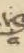བ
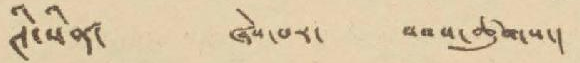ཊི་སིན་ ཞེས་པར་ བབས་ཚུགས་།
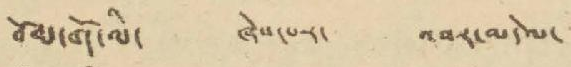བོམ་གོ་ལི་ ཞེས་པར་ འབར་མདེལ་
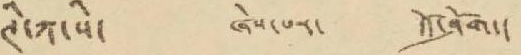ཊི་ཀ་སི་ ཞེས་པར་ འོད་ཤོག་།
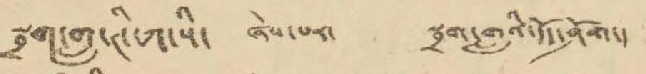སྦྲག་གླ་ཊི་ཀ་སི་ ཞེས་པར་ སྦྲག་གླའི་འོད་ཤོག་།
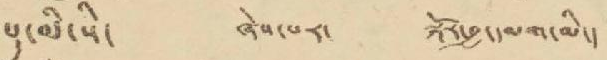པུ་ལི་སི་ ཞེས་པེ་ སྐོར་བྱ་དམག་མི་།
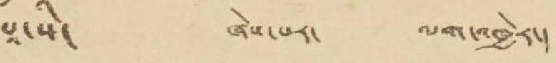པཱ་སི་ ཞེས་པར་ ལག་འཁྱེར་།
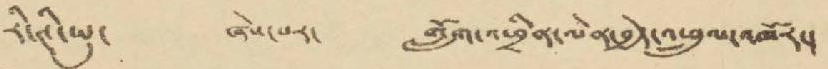རི་ཊི་ཡུ་ ཞེས་པར་ གློག་འཕྲིན་ལེན་བྱེད་འཕྲུལ་འཁོར་།
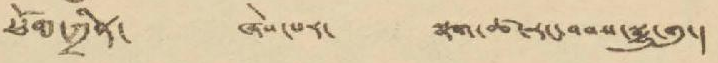ཕོམ་ཀྲིན་ ཞེས་པར་ སྣག་ཚ་རང་བབས་སྨྱུ་གུ་།
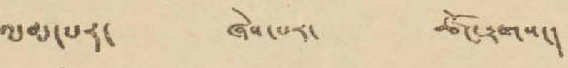ལམ་པར་ ཞེས་པར་ ཚོང་རྟགས་།
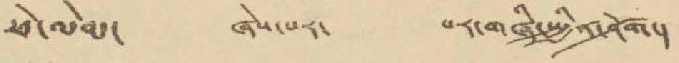ཕེ་ལེབ་ ཞེས་པར་ པར་གཞི་སྤྱིན་ཤོག་།
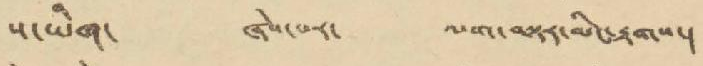ས་ཡིག་ ཞེས་པར་ ལག་བསྟར་མིང་རྟགས་།
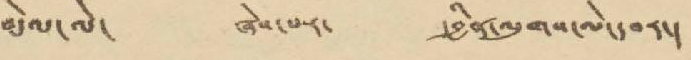མེལ་ལེ་ ཞེས་པར་ དབྱིན་ལུགས་ལེ་དབར་།
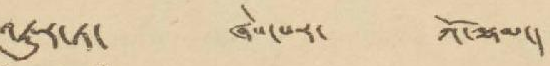འཇུར་ཏ་ ཞེས་པར་ ཀོ་ལྷམ་།
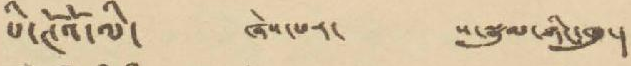པི་ཊོའོ་མི་ ཞེས་པར་ ས་སྣུམ་ཉིང་ཁུ་།
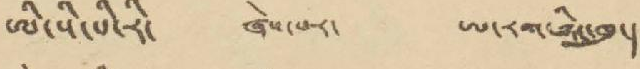ཨི་སི་པི་རི་ ཞེས་པར་ ཨ་རག་ཉིང་ཁུ་།
